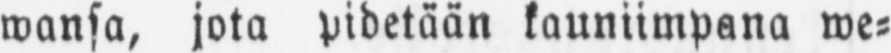wansa, jota pidetään kauniimpana we-
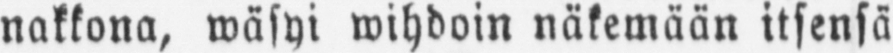nakkona, wäsyi wihdoin näkemään itsensä
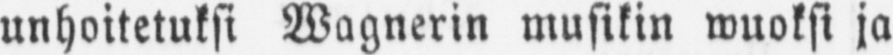unhoitetuksi Wagnerin musiikin wuoksi ja
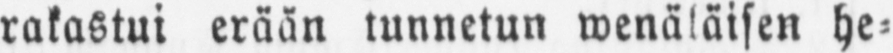rakastui erään tunnetun wenäläisen he-
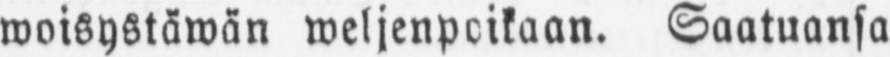woisystäwän weljenpoikaan. Saatuansa
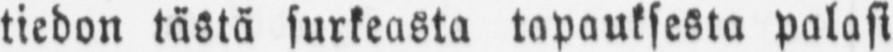tiedon tästä surkeasta tapauksesta palasi
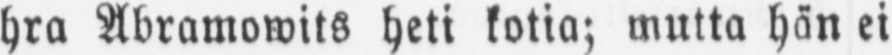hra Abramowits heti kotia; mutta hän ei
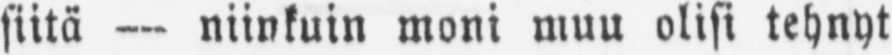siitä — niinkuin moni muu olisi tehnyt
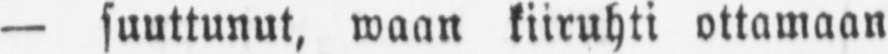— suuttunut, waan kiiruhti ottamaan
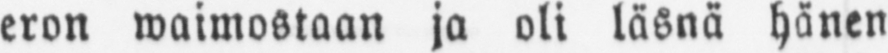eron waimostaan ja oli läsnä hänen
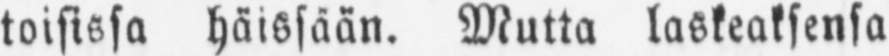toisissa häissään. Mutta laskeaksensa
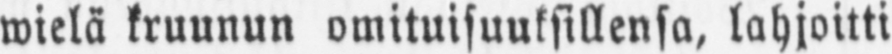wielä kruunun omituisuuksillensa, lahjoitti
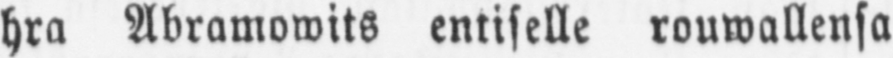hra Abramowits entiselle rouwallensa
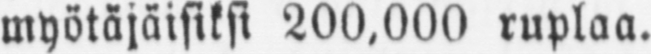myötäjäisiksi 200,000 ruplaa.
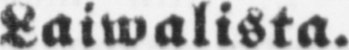Laiwalista.
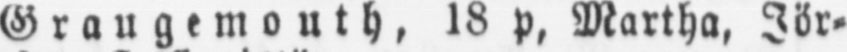Graugemouth, 18 p, Martha, Jör-
